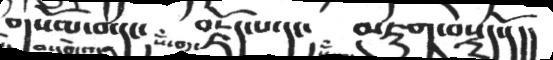གསོལ་བ་དང༴  བརྗོད་པ་དང༴   མཇུག་བསྡུད་དོ།།
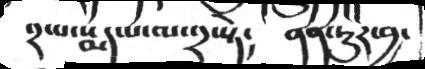༢་པ་སྨད་པ་ལ་༢་སྟེ།  ནན་རུར་བྱ་
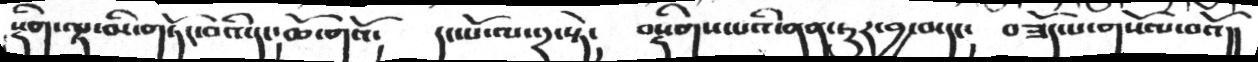སྡིག་ལྟ་མི་གཏོང་བའི་དང་ཆོ་གའོ།   དང་པོ་ལ་༢་སྟེ།   བསྡིགས་པའི་ནན་ཏུར་བྱ་བ་དང།   བཟོད་པ་གསོལ་བའོ།།
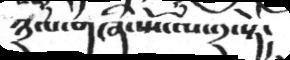༣་པ་གཞི་སྤོང་པ་༢་སྟེ།
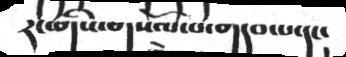རང་གིས་གསོལ་པ་གདབ་པ་དང།
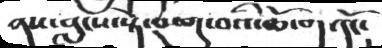ནས་བླངས་སྟེ་འཆད་བའི་ཆོ་ག་དོང།
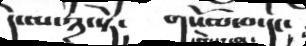དེ་ལ་༣་སྟེ།  གསོལ་བ་དང།
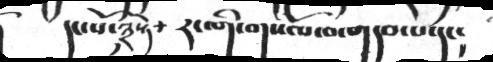དང་པོ་༣་ཏེ     རང་གི་གསོལ་བ་གདབ་པ་དང།
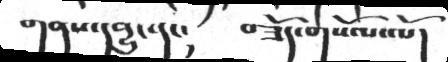གནས་དབྱུང་དང།  བཟོད་གསོལ་ལོ།
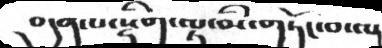བདུན་པ་སྡིག་ལྟ་མི་གཏོང་བ་ལ།
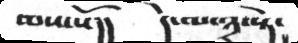ལས་སོ།།   དེ་ལ་༣་སྟེ།
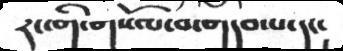རང་གི་གསོལ་བ་གདབ་པ་དང།
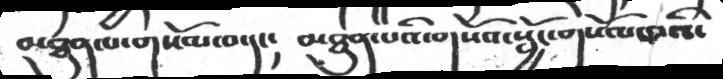མཐུན་པ་གསོལ་བ་དང།  མཐུན་པའི་གསོབ་སྦྱོང་གསོལ་བའི་
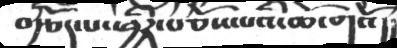རྩོད་པ་ཕྱིར་བཅོས་པའི་ཆོ་གའོ།།
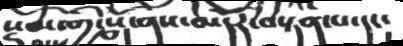སྡོམ་གྱི་སྒོ་ནས་མདོར་བསྟན་པ་དང།
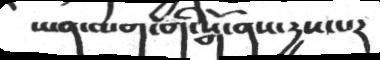ཡན་ལག་གི་སྒོ་ནས་དྱས་པར
